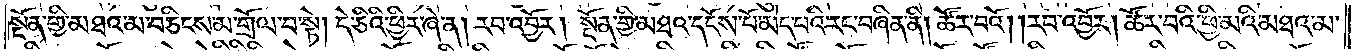སྔོན་གྱི་མཐའ་མ་བཅིངས་མ་གྲོལ་བ་སྟེ། དེ་ཅིའི་ཕྱིར་ཞེ་ན། རབ་འབྱོར། སྔོན་གྱི་མཐའ་དངོས་པོ་མེད་པའི་རང་བཞིན་ནི། ཚོར་བའོ། །རབ་འབྱོར། ཚོར་བའི་ཕྱི་མའི་མཐའ་མ་
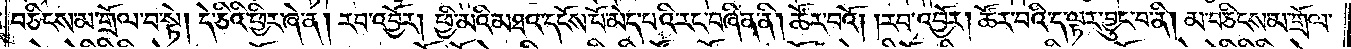བཅིངས་མ་གྲོལ་བ་སྟེ། དེ་ཅིའི་ཕྱིར་ཞེ་ན། རབ་འབྱོར། ཕྱི་མའི་མཐའ་དངོས་པོ་མེད་པའི་རང་བཞིན་ནི། ཚོར་བའོ། །རབ་འབྱོར། ཚོར་བའི་ད་ལྟར་བྱུང་བ་ནི། མ་བཅིངས་མ་གྲོལ་
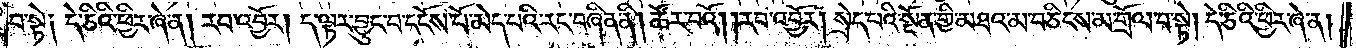བ་སྟེ༑ དེ་ཅིའི་ཕྱིར་ཞེ་ན། རབ་འབྱོར། ད་ལྟར་བྱུང་བ་དངོས་པོ་མེད་པའི་རང་བཞིན་ནི། ཚོར་བའོ། །རབ་འབྱོར། སྲེད་པའི་སྔོན་གྱི་མཐའ་མ་བཅིངས་མ་གྲོལ་བ་སྟེ། དེ་ཅིའི་ཕྱིར་ཞེ་ན།
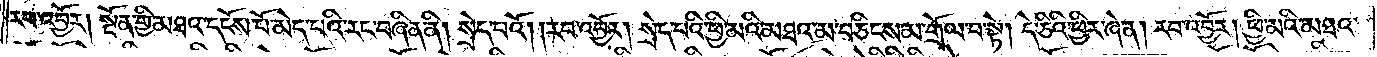རབ་འབྱོར། སྔོན་གྱི་མཐའ་དངོས་པོ་མེད་པའི་རང་བཞིན་ནི། སྲེད་པའོ། །རབ་འབྱོར། སྲེད་པའི་ཕྱི་མའི་མཐའ་མ་བཅིངས་མ་གྲོལ་བ་སྟེ། དེ་ཅིའི་ཕྱིར་ཞེ་ན། རབ་འབྱོར། ཕྱི་མའི་མཐའ་
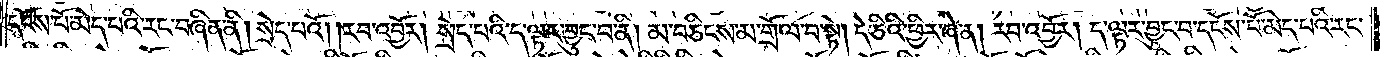དངོས་པོ་མེད་པའི་རང་བཞིན་ནི། སྲེད་པའོ། །རབ་འབྱོར། སྲེད་པའི་ད་ལྟར་བྱུང་བ་ནི། མ་བཅིངས་མ་གྲོལ་བ་སྟེ། ད་ཅིའི་ཕྱིར་ཞེ་ན། རབ་འབྱོར། ད་ལྟར་བྱུང་བ་དངོས་པོ་མེད་པའི་རང་
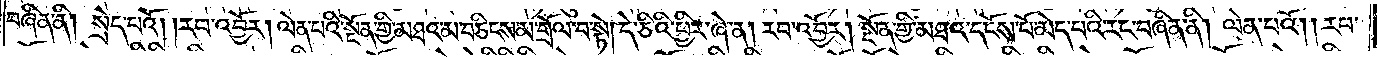བཞིན་ནི། སྲེད་པའོ། །རབ་འབྱོར། ལེན་པའི་སྔོན་གྱི་མཐའ་མ་བཅིངས་མ་གྲོལ་བ་སྟེ། དེ་ཅིའི་ཕྱིར་ཞེ་ན། རབ་འབྱོར། སྔོན་གྱི་མཐའ་དངོས་པོ་མེད་པའི་རང་བཞིན་ནི། ལེན་པའོ། །རབ་
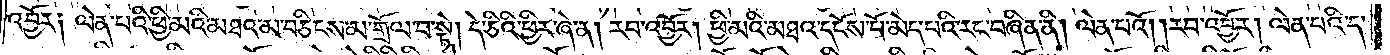འབྱོར༑ ལེན་པའི་ཕྱི་མའི་མཐའ་མ་བཅིངས་མ་གྲོལ་བ་སྟེ། དེ་ཅིའི་ཕྱིར་ཞེ་ན། རབ་འབྱོར། ཕྱི་མའི་མཐའ་དངོས་པོ་མེད་པའི་རང་བཞིན་ནི། ལེན་པའོ། །རབ་འབྱོར། ལེན་པའི་ད་
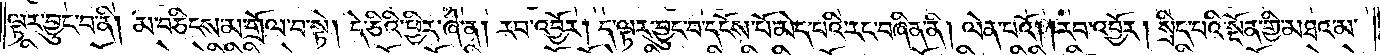ལྟར་བྱུང་བ་ནི། མ་བཅིངས་མ་གྲོལ་བ་སྟེ། དེ་ཅིའི་ཕྱིར་ཞེ་ན། རབ་འབྱོར། ད་ལྟར་བྱུང་བ་དངོས་པོ་མེད་པའི་རང་བཞིན་ནི། ལེན་པའོ། །རབ་འབྱོར། སྲིད་པའི་སྔོན་གྱི་མཐའ་མ་
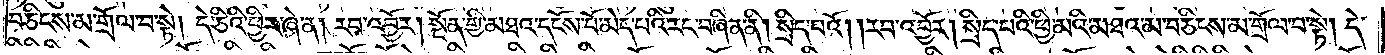བཅིངས་མ་གྲོལ་བ་སྟེ། དེ་ཅིའི་ཕྱིར་ཞེ་ན། རབ་འབྱོར། སྔོན་གྱི་མཐའ་དངོས་པོ་མེད་པའི་རང་བཞིན་ནི། སྲིད་པའོ། །རབ་འབྱོར། སྲིད་པའི་ཕྱི་མའི་མཐའ་མ་བཅིངས་མ་གྲོལ་བ་སྟེ། དེ་
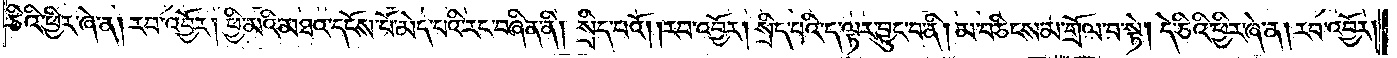ཅིའི་ཕྱིར་ཞེ་ན། རབ་འབྱོར། ཕྱི་མའི་མཐའ་དངོས་པོ་མེད་པའི་རང་བཞིན་ནི། སྲིད་པའོ། །རབ་འབྱོར། སྲིད་པའི་ད་ལྟར་བྱུང་བ་ནི། མ་བཅིངས་མ་གྲོལ་བ་སྟེ། དེ་ཅིའི་ཕྱིར་ཞེ་ན། རབ་འབྱོར།
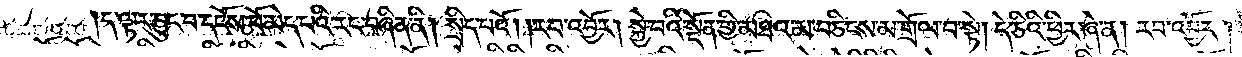ད་ལྟར་བྱུང་བ་དངོས་པོ་མེད་པའི་རང་བཞིན་ནི། སྲིད་པའོ། །རབ་འབྱོར། སྐྱེ་བའི་སྔོན་གྱི་མཐའ་མ་བཅིངས་མ་གྲོལ་བ་སྟེ། དེ་ཅིའི་ཕྱིར་ཞེ་ན། རབ་འབྱོར།
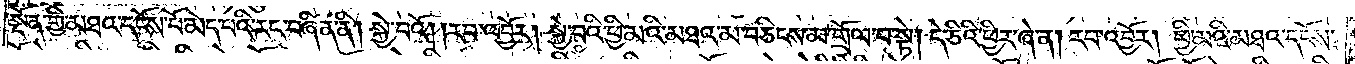སྔོན་གྱི་མཐའ་དངོས་པོ་མེད་པའི་རང་བཞིན་ནི། སྐྱེ་བའོ། །རབ་འབྱོར། སྐྱེ་བའི་ཕྱི་མའི་མཐའ་མ་བཅིངས་མ་གྲོལ་བ་སྟེ། དེ་ཅིའི་ཕྱིར་ཞེ་ན། རབ་འབྱོར། ཕྱི་མའི་མཐའ་དངོས་
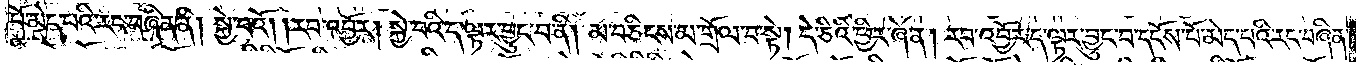པོ་མེད་པའི་རང་བཞིན་ནི། སྐྱེ་བའོ། །རབ་འབྱོར། སྐྱེ་བའི་ད་ལྟར་བྱུང་བ་ནི། མ་བཅིངས་མ་གྲོལ་བ་སྟེ། དེ་ཅིའི་ཕྱིར་ཞེ་ན། རབ་འབྱོར་ད་ལྟར་བྱུང་བ་དངོས་པོ་མེད་པའི་རང་བཞིན་
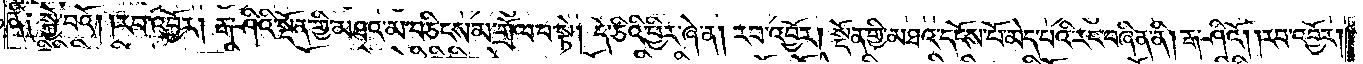ནི༑ སྐྱེ་བའོ། །རབ་འབྱོར། རྒ་ཤའི་སྔོན་གྱི་མཐའ་མ་བཅིངས་མ་གྲོལ་བ་སྟེ། དེ་ཅིའི་ཕྱིར་ཞེ་ན། རབ་འབྱོར། སྔོན་གྱི་མཐའ་དངོས་པོ་མེད་པའི་རང་བཞིན་ནི། རྒ་ཤིའོ། །རབ་འབྱོར།
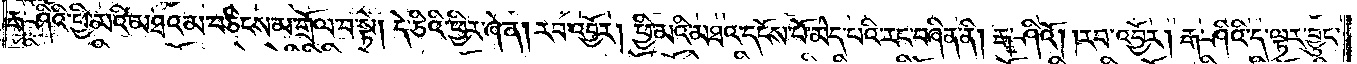རྒ་ཤིའི་ཕྱི་མའི་མཐའ་མ་བཅིངས་མ་གྲོལ་བ་སྟེ། དེ་ཅིའི་ཕྱིར་ཞེ་ན། རབ་འབྱོར། ཕྱི་མའི་མཐའ་དངོས་པོ་མེད་པའི་རང་བཞིན་ནི། རྒ་ཤིའོ། །རབ་འབྱོར། རྒ་ཤིའི་དེ་ལྟར་བྱུང་
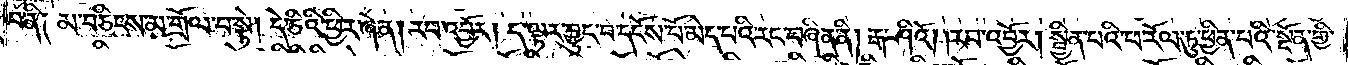བ་ནི༑ མ་བཅིངས་མ་གྲོལ་བ་སྟེ། དེ་ཅིའི་ཕྱིར་ཞེ་ན། རབ་འབྱོར། ད་ལྟར་བྱུང་བ་དངོས་པོ་མེད་པའི་རང་བཞིན་ནི། རྒ་ཤིའོ། །རབ་འབྱོར། སྦྱིན་པའི་ཕ་རོལ་ཏུ་ཕྱིན་པའི་སྔོན་གྱི་
